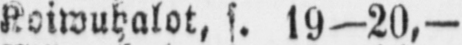Koiwuhalot, s. l9-20,-
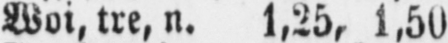Woi, tre, n. 1,25, 1,50
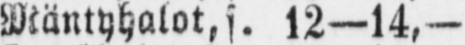Mäntyhalot, s. 12—14,—
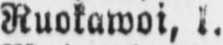Ruokawoi, l. 22-23,50
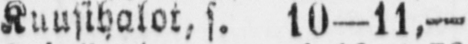Kuusihalot, s. 10—11.—
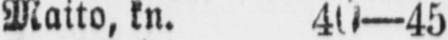Maito. kn. 40—45
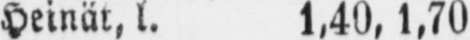Heinät. l. 1,40, 1,70
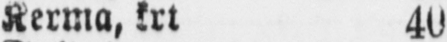Kerma, krt 40
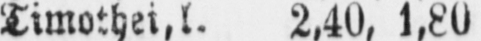Timothei. l. 2,40, 1,80
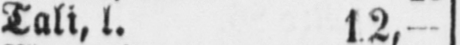Tali. l. 12,—
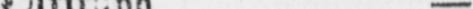Olikikupo —
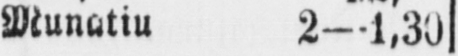Munatiu 2—1,30
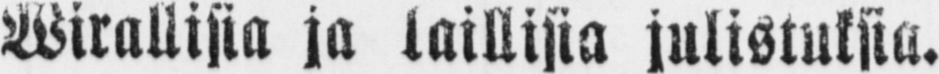Wirallisia ja Laillisia julistuksia.
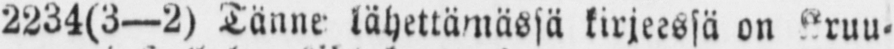2234(3 —2) Tänne lähettämässä kirjeessä on Kruu-
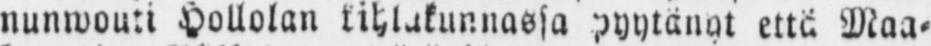nunwouti Hollolan kihlakunnassa pyytänyt että Maa-
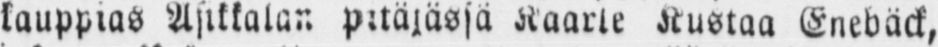kauppias Asikkalan pitäjässä Kaarle Kustaa Enebäck,
